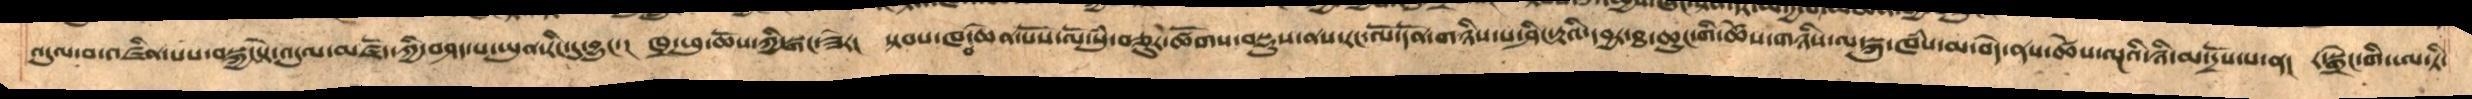འདུལ་བ་འཛིན་པས་བསྐྱང་སྟེ་འདུལ་མཛོད་ཀྱི་བཤད་པ་ཡུན་རིང་དུ་བྱུང་། ཁྲ་ཕུ་ཆོས་ཀྱི་སྒང་ཟེར།  སྟབས་ཁབ་ཆེན་པོས་ལོ་སུཾ་བཅུར་ཚོགས་བསྡུས་ནས་རང་ལོ་དོན་གཉིས་པ་ཤིང་རྟའི་དབྱར་ཐ་ཆུང་གི་ཚེས་གཉིས་ལ་སྐུ་ཁཾས་མ་བདེ་ནས་ཚེས་ལྔའི་ཉི་མ་དྲོས་པ་ན།  ར་སྒྲེང་གི་ཨ་ཏི་
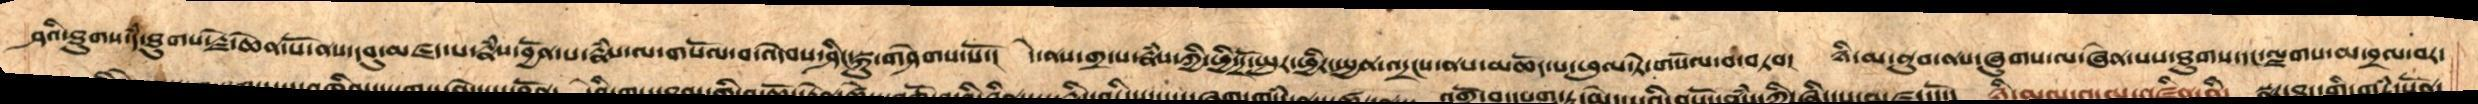ཤའི་ཐུགས་དཾ་ཐུགས་རྗེ་ཆེན་པོ་ནས་དབུ་མཛད་པ་རྣཾས་བྱོན་པ་རྣཾས་ལ་གསོལ་བ་འདེབས་ཤིང་སྐུ་གཤེགས་སོ་།  དེ་ནས་གྲ་པ་རྣཾས་ཀྱི་ཕྱི་དྲོ་སྤུར་ཕྱིར་སྤྱན་འདྲངས་ནས་མཆོད་པ་ཕུལ་ཏེ་གསོལ་བ་བཏབ།  ཉི་མ་ནུབ་ནས་ཞུགས་ལ་ཞེན་པས་ཐུགས་དང་ལྗགས་མ་བྲལ་བར་
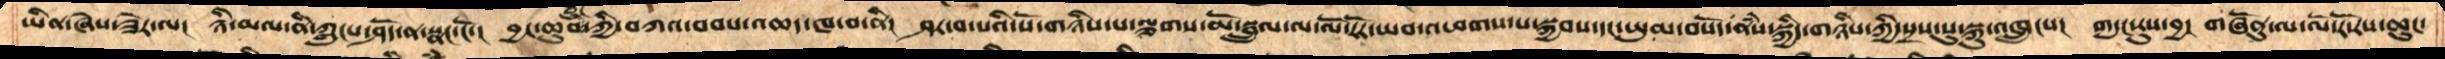ཡིན་ཞེས་ཟེར་ལ།  ཉི་མལ་ནི་ཀླུངས་ཤོད་ན་སྣང་ངོ་།  བྱང་ཆུབ་ཐུཌ་ཀྱི་བཀའ་བབས་འཆད་ཁ་བ་ནི། ཤར་བ་པའི་སོ་གཉིས་པ་ལྕགས་མོ་སྦྲུལ་ལ་ལོ་རོར་ཡབ་འཕགས་པ་སྐྱབས་དང་ཡུམ་བསོད་ནཾས་སྐྱིད་གཉིས་ཀྱི་སྲས་སུ་སྐུ་འཁྲུངས།  གདུང་རུས་བྱ། གཞོནུ་ལ་ལོ་རོ་རས་ཆུང་
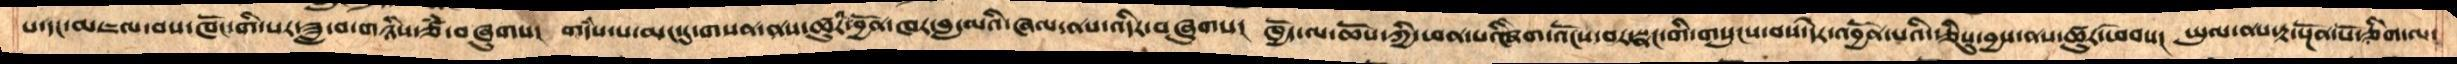པ་དང་མཇལ་བས་ཁོང་གི་སར་ཟླ་བ་གཉིས་ཙཾ་བཞུགས། གདཾས་པ་མང་དུ་གསན་ནས་ཚུར་འབྱོན་ཁར་བླ་མའི་ཞལ་ནས་འདིར་བཞུགས། ཁྱོད་ལ་ཆོས་ཀྱི་ཕན་པ་ཞིག་འོངས་བར་སྣང་གི་གསུངས་བས་དེར་འབྱོན་པའི་ཅིསུ་བྱས་ནས་ཚུར་ཕེབས། ཡུལ་ནས་རྟ་སྔོན་པོ་ཅིག་ལ
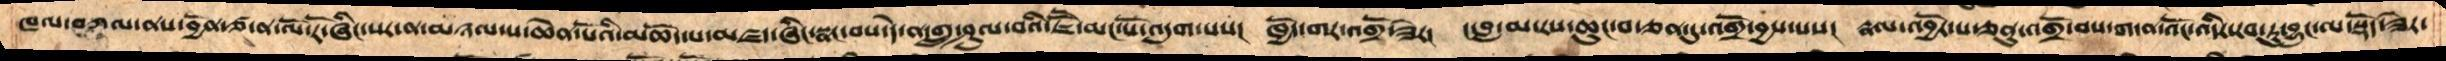ཁལ་བཀལ་ནས་བྱོན་ཙ་ན་ལོ་རོ་ཞིང་སར་ན་མཉལ་ས་ཆེན་པོའི་མཆོད་པ་མཛད་ཞིང་སྣང་བས་དེ་ན་གྲུ་ཤུལ་བའི་ཇཽ་མང་པོ་འདུག་པས།  ཁྱོད་གར་འགྲོ་ཟེར། ང་བླ་མ་རས་ཆུང་པ་ཅན་དུ་འགྲོ་བྱས་པས། རྣལ་འབྱོར་པ་ཅནུ་འགྲོ་བས་ག་ན་འོང་འདིར་རབ་ཏུ་བྱུང་ལ་སྡོད་ཟེར་
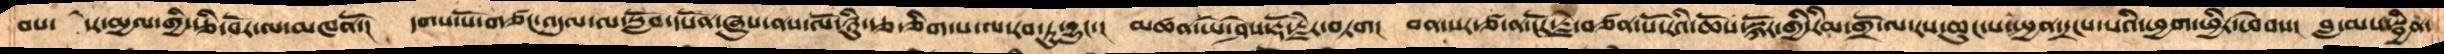བས། དེར་མྱལ་གྱི་རྩི་བོར་ལ་མཁནོ་། དགས་པོ་གཙང་འདུལ་ལ་སློབ་དཔོན་ཞུས་ནས་ལོ་ཉིུ་རྩ་ཅིག་པ་ལ་རབ་ཏུ་བྱུང་། མཚན་ཡེ་ཤེས་རྡོ་རྗེར་བཏག།  བན་སར་ཙ་ན་ངོར་རྗེ་བཙན་པོ་རའི་ཆོས་སྐོར་གྱི་རིམ་གྲོ་ལ་རས་ཆུང་པ་སྤྱན་དྲངས་པའི་ཕྱག་ཕྱིར་ཕེབས། བླ་མ་བསྦྱིན་
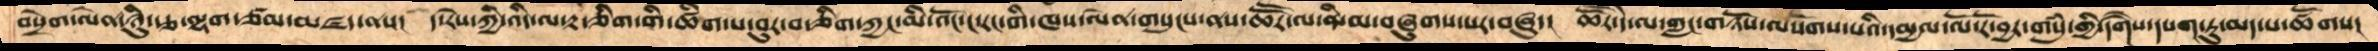བསྲེག་ལེན་ཉིུ་རྩ་ལྷག་ཙམ་མཛད་ནས། ད་རེས་ཀྱི་འདི་ལ་རྟ་ཅིག་གི་ཚིག་པ་བུར་བ་ཅིག་ཀྱང་མི་འོང་ང་རང་གི་ཁས་ལེན་གསུངས་ནས་ཆཽར་ལ་ནི་མ་བཞུགས་པར་བཞུད། ཆཽར་དེ་ལ་གླང་གཉོས་ལསོགས་པའི་དམྱལ་ལོ་རོ་བྱར་གསུཾ་གྱི་དགཻས་དཔག་ཏུ་མད་པ་ཚོགས།
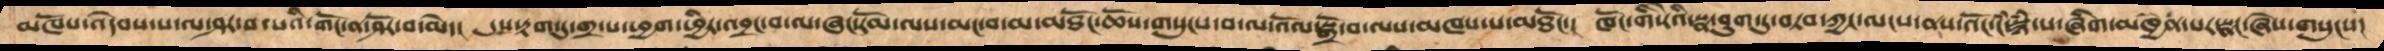མཁོས་འདེབས་པ་ལ་ཤར་བ་པའི་གོང་ན་ཤོར་བ་མེད། དུས་རྟག་དུ་གྲ་པ་ཕྱག་ཕྱིར་འབྲང་བ་ལ་ཞང་རོམ་ལས་མང་བ་མ་མཐོང་ཆོས་གསུངས་བ་ལ་འོལ་སྒྲོ་བ་ལས་མཁས་པ་མཐོང་། ཁོང་གི་རོའི་སྣ་བུག་ཏུ་བཏབ་ཀྱང་ལངས་ནས་འོང་ངཾ་སྙཾ་པ་ཞིག་མཁྱེན་པར་སྣང་ཞེས་གསུངས།
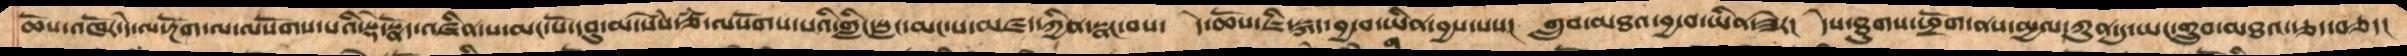ཆོས་འཁོར་དེ་ལ་རྔོག་ལ་ལསོགས་པའི་སྡེ་སྣོད་འཛིན་པ་མང་པོ་དབུ་མ་སེཾས་ཙཾ་ལསོགས་པའི་གླིང་སླང་མང་པ་མཛད་ཀྱིན་སྣང་བས། དེ་ཆོས་ཇི་སྐད་བྱ་བ་ཡིན་བྱས་པས། གྲུབ་མཐའ་བྱ་བ་ཡིན་ཟེར། དེས་ཐུགས་ཕྲོག་ནས་མྱལ་ཀུན་དུ་ཡང་གྲུབ་མཐའ་རྩད་བཅད།
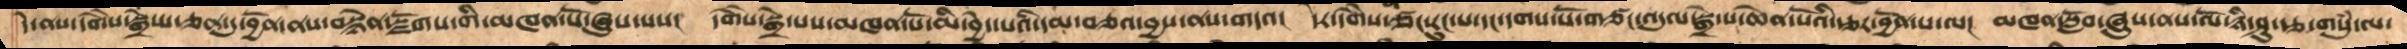དེ་ནས་དགཻས་སྒྲེ་པ་ཅན་དུ་བྱོན་ནས་བསྙེན་སྫོགས་གི་མཁན་པོ་ཞུས་པས། དགཻས་སྒྲེ་པས་མཁན་པོ་མི་བྱེད་པའི་དམ་བཅའ་བྱས་ནས་གདའ། དེར་དགཻས་ཙང་རུང་པ་དང་དགས་པོ་གཙང་འདུལ་སྒྲེ་པ་ཆེན་པོའི་རྩར་བྱོན་པ་ལ། མཁན་སློབ་ཞུས་ནས་ལོ་ཉི་ཤུ་རྩ་གསུཾ་ལ་
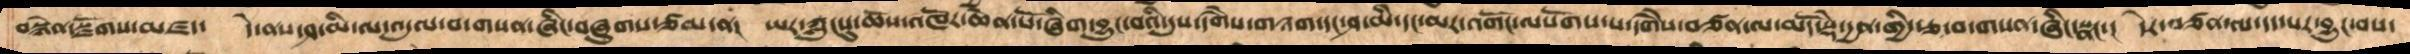བསྙེན་སྫོགས་མཛད། དེ་ནས་ཤ་མི་ལ་འདུལ་བ་གསན་ཅིང་བཞུགས་ཙམ་ན། ཡར་ཀླུངདུ་ཆོས་འཁོར་ཆེན་པོ་ཞིག་བྱུང་བའི་དུས་དགཻས་གཉག་དང་ཤ་མི་དང་མར་འགོང་ལསོགས་དགཻཔ་བཙན་ལ་མདོ་སྡེ་དྱན་གྱི་རྩ་བ་གསན་ཞིང་སྣང་། དེར་བཙན་ལ་དད་པར་བྱུང་བས་
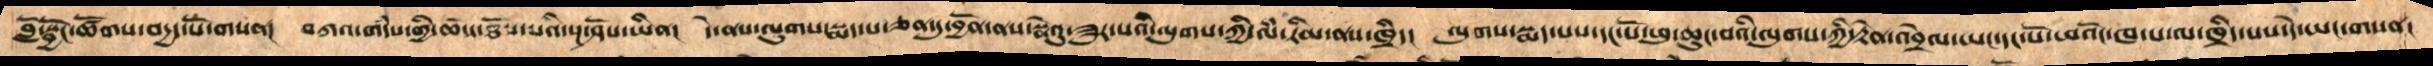བློ་སྦྱོང་ཚོགས་བདྱད་པོ་གསན། བཀའ་གདཾས་ཀྱི་ཆོས་ཐོས་པའི་སྔ་ཤོས་ཡིན། དེ་ནས་ལུགས་སྨད་པ་ཅན་དུ་བྱོན་ནས་སྣེའུ་ཟུར་པའི་ལུགས་ཀྱི་ལཾ་རིམ་ནས་ཁྲིད། ལུགས་སྨད་པས་དང་པོ་ཕུ་ཆུང་བའི་ལུགས་ཀྱི་རྟེན་འབྲེལ་ཡང་དང་པོ་ཕའོང་ཁ་པ་ལ་ཁྲིད་པས་དེ་ཡང་གསན།
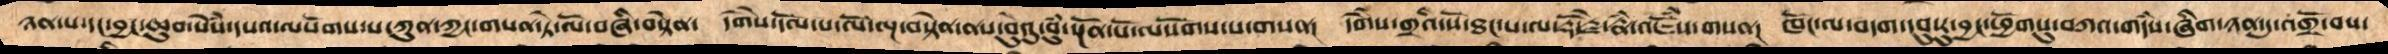ཉན་ས་དང་བྱང་ཆུབ་སེཾས་དཔའ་ལསོགས་པ་ཀུན་ཀྱང་གསན་ཏེ་ལོ་བཞི་བསྟེན། དགཻས་དོལ་པ་ལོ་ལྔ་བསྟེན་ནས་བེུའུ་བུཾ་སྔོན་པོ་ལསོགས་པ་གསན། དགཻས་གྲའི་སོ་ཐང་པ་ལ་རྡོ་རྗེ་རྣཾ་འཇོཾས་གསན། ཁོང་ལ་བདག་དབུ་རུ་བྱང་ཕྱོགསུ་བཀའ་གདཾས་ཞིག་ཉན་དུ་འགྲོ་བས་
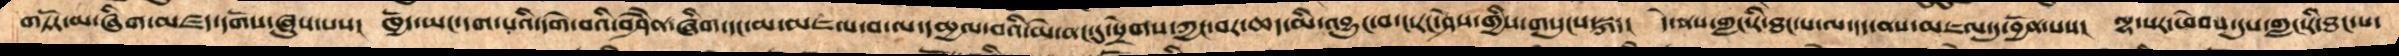གཏོར་མ་ཞིག་མཛད་དགོས་ཞུས་པས། ཁྱོད་ཡང་དག་པའི་དགེ་བའི་བཤཻན་ཞིག་དང་མ་མཇལ་བ་ལ་དམྱལ་བའི་མེ་ནང་དུ་སྲེགས་ཀྱང་བར་ཆད་མི་འབྱུང་བ་ང་རང་ཤེས་གྱིས་གསུངས་སྐད། དེ་ནས་གླང་རི་ཐང་པ་ལ་དད་ནས་མཇལ་དུ་བྱོན་པས། ལྷ་སར་ཕེབས་དུས་གླང་རི་ཐང་པ་
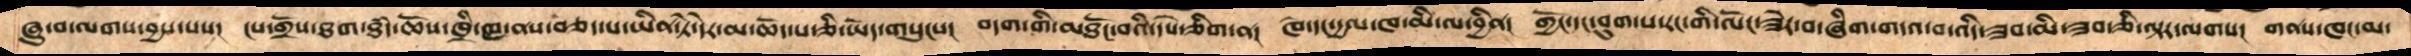ཞུ་བ་ལགས་བྱས་པས།  ངས་གྲོས་ཐག་ཐཾད་ཆོས་ཁྲི་ཁ་ནས་བཅད་པ་ཡིན་ཏེ་དེར་མ་ཆོད་པ་ཅི་ཡོད་གསུངས།  བདག་གི་མཐོང་བའི་དཔེ་ཅིག་ན།  ཁེ་དང་དྱལ་ཁ་མི་ལ་བྱིན།  གྱོང་དང་བུག་པ་རང་གི་ལོང་ཟེར་བ་ཞིག་གདའ་བ་འདི་ཟབ་མི་ཟབ་ཅི་ལྟར་ལགས།  གནས་ཁང་མ་
